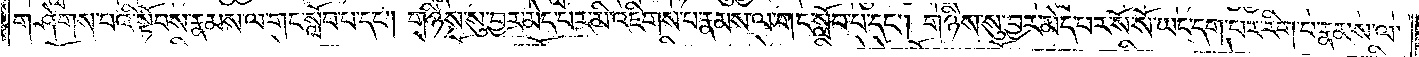གཤེགས་པའི་སྟོབས་རྣམས་ལ་གང་སློབ་པ་དང༌། གཉིས་སུ་བྱར་མེད་པར་མི་འཇིགས་པ་རྣམས་ལ་གང་སློབ་པ་དང༌། གཉིས་སུ་བྱར་མེད་པར་སོ་སོ་ཡང་དག་པར་རིག་པ་རྣམས་ལ་
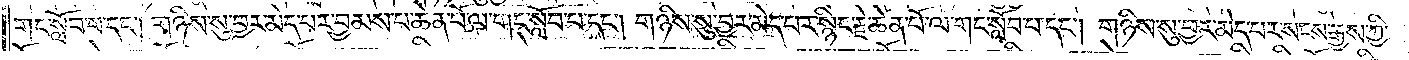གང་སློབ་པ་དང༌། གཉིས་སུ་བྱར་མེད་པར་བྱམས་པ་ཆེན་པོ་ལ་གང་སློབ་པ་དང༌། གཉིས་སུ་བྱར་མེད་པར་སྙིང་རྗེ་ཆེན་པོ་ལ་གང་སློབ་པ་དང༌། གཉིས་སུ་བྱར་མེད་པར་སངས་རྒྱས་ཀྱི་
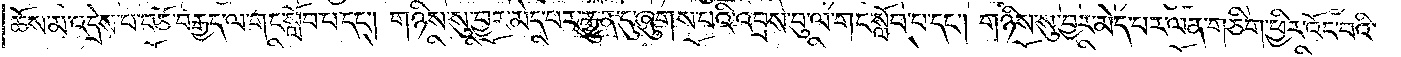ཆོས་མ་འདྲེས་པ་བཅོ་བརྒྱད་ལ་གང་སློབ་པ་དང༌། གཉིས་སུ་བྱར་མེད་པར་རྒྱུན་དུ་ཞུགས་པའི་འབྲས་བུ་ལ་གང་སློབ་པ་དང༌། གཉིས་སུ་བྱར་མེད་པར་ལན་ཅིག་ཕྱིར་འོང་བའི་
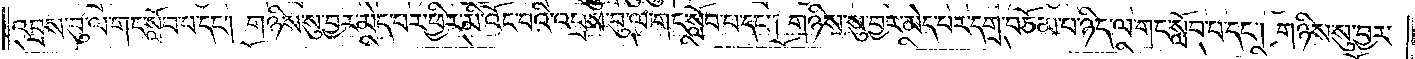འབྲས་བུ་ལ་གང་སློབ་པ་དང༌། གཉིས་སུ་བྱར་མེད་པར་ཕྱིར་མི་འོང་བའི་འབྲས་བུ་ལ་གང་སློབ་པ་དང༌། གཉིས་སུ་བྱར་མེད་པར་དགྲ་བཅོམ་པ་ཉིད་ལ་གང་སློབ་པ་དང༌། གཉིས་སུ་བྱར་
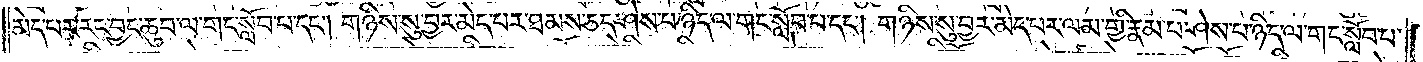མེད་པར་རང་བྱང་ཆུབ་ལ་གང་སློབ་པ་དང༌། གཉིས་སུ་བྱར་མེད་པར་ཐམས་ཅད་ཤེས་པ་ཉིད་ལ་གང་སློབ་པ་དང༌། གཉིས་སུ་བྱར་མེད་པར་ལམ་གྱི་རྣམ་པ་ཤེས་པ་ཉིད་ལ་གང་སློབ་པ་
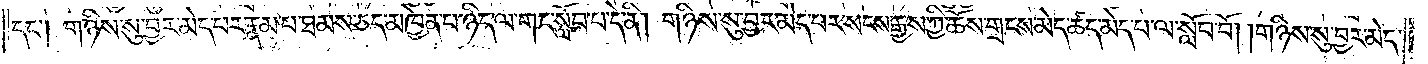དང༌། གཉིས་སུ་བྱར་མེད་པར་རྣམ་པ་ཐམས་ཅད་མཁྱེན་པ་ཉིད་ལ་གང་སློབ་པ་དེ་ནི། གཉིས་སུ་བྱར་མེད་པར་སངས་རྒྱས་ཀྱི་ཆོས་གྲངས་མེད་ཚད་མེད་པ་ལ་སློབ་བོ། །གཉིས་སུ་བྱར་མེད་
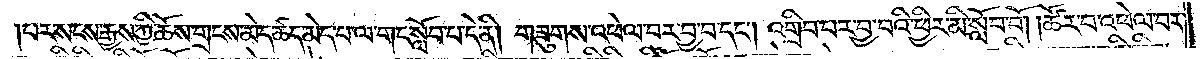པར་སངས་རྒྱས་ཀྱི་ཆོས་གྲངས་མེད་ཚད་མེད་པ་ལ་གང་སློབ་པ་དེ་ནི། གཟུགས་འཕེལ་བར་བྱ་བ་དང༌། འགྲིབ་པར་བྱ་བའི་ཕྱིར་མི་སློབ་བོ། །ཚོར་བ་འཕེལ་བར་
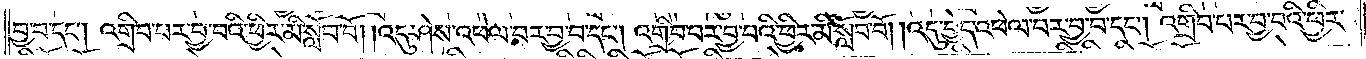བྱ་བ་དང༌། འགྲིབ་བར་བྱ་བའི་ཕྱིར་མི་སློབ་བོ། །འདུ་ཤེས་འཕེལ་བར་བྱ་བ་དང༌། འགྲིབ་པར་བྱ་བའི་ཕྱིར་མི་སློབ་བོ། །འདུ་བྱེད་འཕེལ་བར་བྱ་བ་དང༌། འགྲིབ་པར་བྱ་བའི་ཕྱིར་
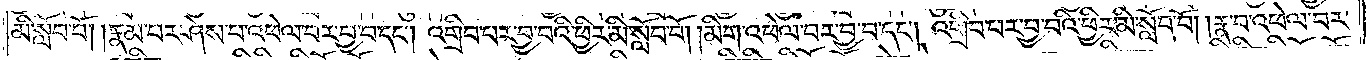མི་སློབ་བོ། །རྣམ་པར་ཤེས་པ་འཕེལ་བར་བྱ་བ་དང༌། འགྲིབ་པར་བྱ་བའི་ཕྱིར་མི་སློབ་བོ། །མིག་འཕེལ་བར་བྱ་བ་དང༌། འགྲིབ་པར་བྱ་བའི་ཕྱིར་མི་སློབ་བོ། །རྣ་བ་འཕེལ་བར་
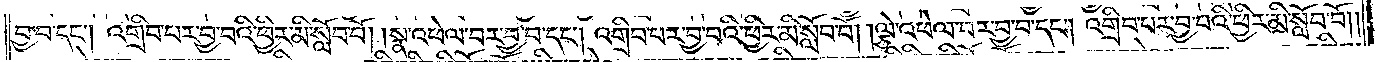བྱ་བ་དང༌། འགྲིབ་པར་བྱ་བའི་ཕྱིར་མི་སློབ་བོ། །སྣ་འཕེལ་བར་བྱ་བ་དང༌། འགྲིབ་པར་བྱ་བའི་ཕྱིར་མི་སློབ་བོ། །ལྕེ་འཕེལ་བར་བྱ་བ་དང༌། འགྲིབ་པར་བྱ་བའི་ཕྱིར་མི་སློབ་བོ༎
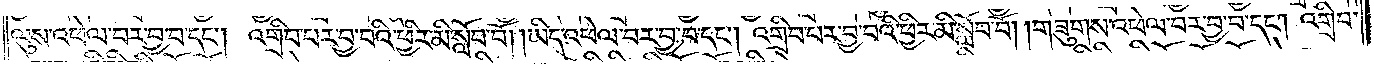ལུས་འཕེལ་བར་བྱ་བ་དང༌། འགྲིབ་པར་བྱ་བའི་ཕྱིར་མི་སློབ་བོ། །ཡིད་འཕེལ་བར་བྱ་བ་དང༌། འགྲིབ་པར་བྱ་བའི་ཕྱིར་མི་སློབ་བོ། །གཟུགས་འཕེལ་བར་བྱ་བ་དང༌། འགྲིབ་
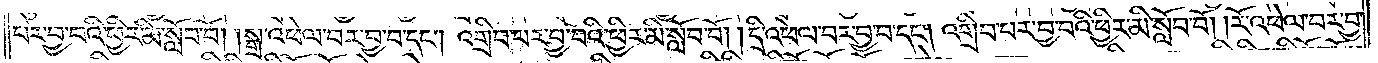པར་བྱ་བའི་ཕྱིར་མི་སློབ་བོ། །སྒྲ་འཕེལ་བར་བྱ་བ་དང༌། འགྲིབ་པར་བྱ་བའི་ཕྱིར་མི་སློབ་པོ། །དྲི་འཕེལ་བར་བྱ་བ་དང༌། འགྲིབ་བར་བྱ་བའི་ཕྱིར་མི་སློབ་བོ། །རོ་འཕེལ་བར་བྱ་
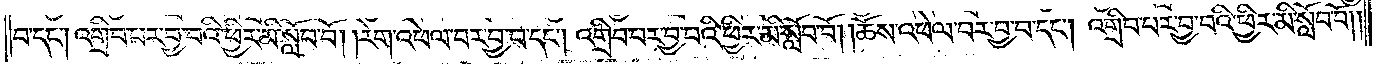བ་དང༌། འགྲིབ་པར་བྱ་བའི་ཕྱིར་མི་སློབ་བོ། །རེག་འཕེལ་བར་བྱ་བ་དང༌། འགྲིབ་པར་བྱ་བའི་ཕྱིར་མི་སློབ་བོ། །ཆོས་འཕེལ་བར་བྱ་བ་དང༌། འགྲིབ་པར་བྱ་བའི་ཕྱིར་མི་སློབ་བོ༎
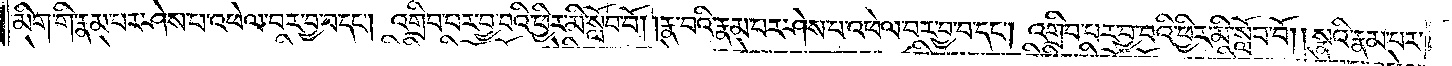མིག་གི་རྣམ་པར་ཤེས་པ་འཕེལ་བར་བྱ་བ་དང༌། འགྲིབ་པར་བྱ་བའི་ཕྱིར་མི་སློབ་བོ། །རྣ་བའི་རྣམ་པར་ཤེས་པ་འཕེལ་བར་བྱ་བ་དང༌། འགྲིབ་པར་བྱ་བའི་ཕྱིར་མི་སློབ་བོ། །སྣའི་རྣམ་པར་
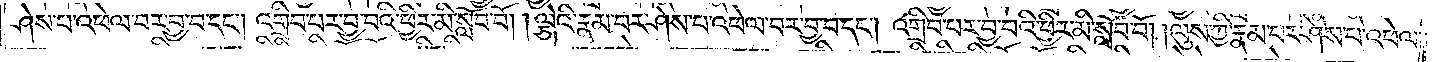ཤེས་པ་འཕེལ་བར་བྱ་བ་དང༌། འགྲིབ་པར་བྱ་བའི་ཕྱིར་མི་སློབ་བོ། །ལྕེའི་རྣམ་པར་ཤེས་པ་འཕེལ་བར་བྱ་བ་དང༌། འགྲིབ་པར་བྱ་བའི་ཕྱིར་མི་སློབ་བོ། །ལུས་ཀྱི་རྣམ་པར་ཤེས་པ་འཕེལ་
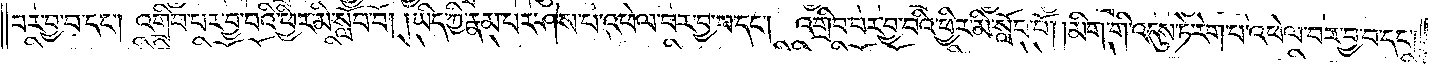བར་བྱ་བ་དང༌། འགྲིབ་པར་བྱ་བའི་ཕྱིར་མི་སློབ་བོ། །ཡིད་ཀྱི་རྣམ་པར་ཤེས་པ་འཕེལ་བར་བྱ་བ་དང༌། འགྲིབ་པར་བྱ་བའི་ཕྱིར་མི་སློབ་བོ། །མིག་གི་འདུས་ཏེ་རེག་པ་འཕེལ་བར་བྱ་བ་དང༌།
